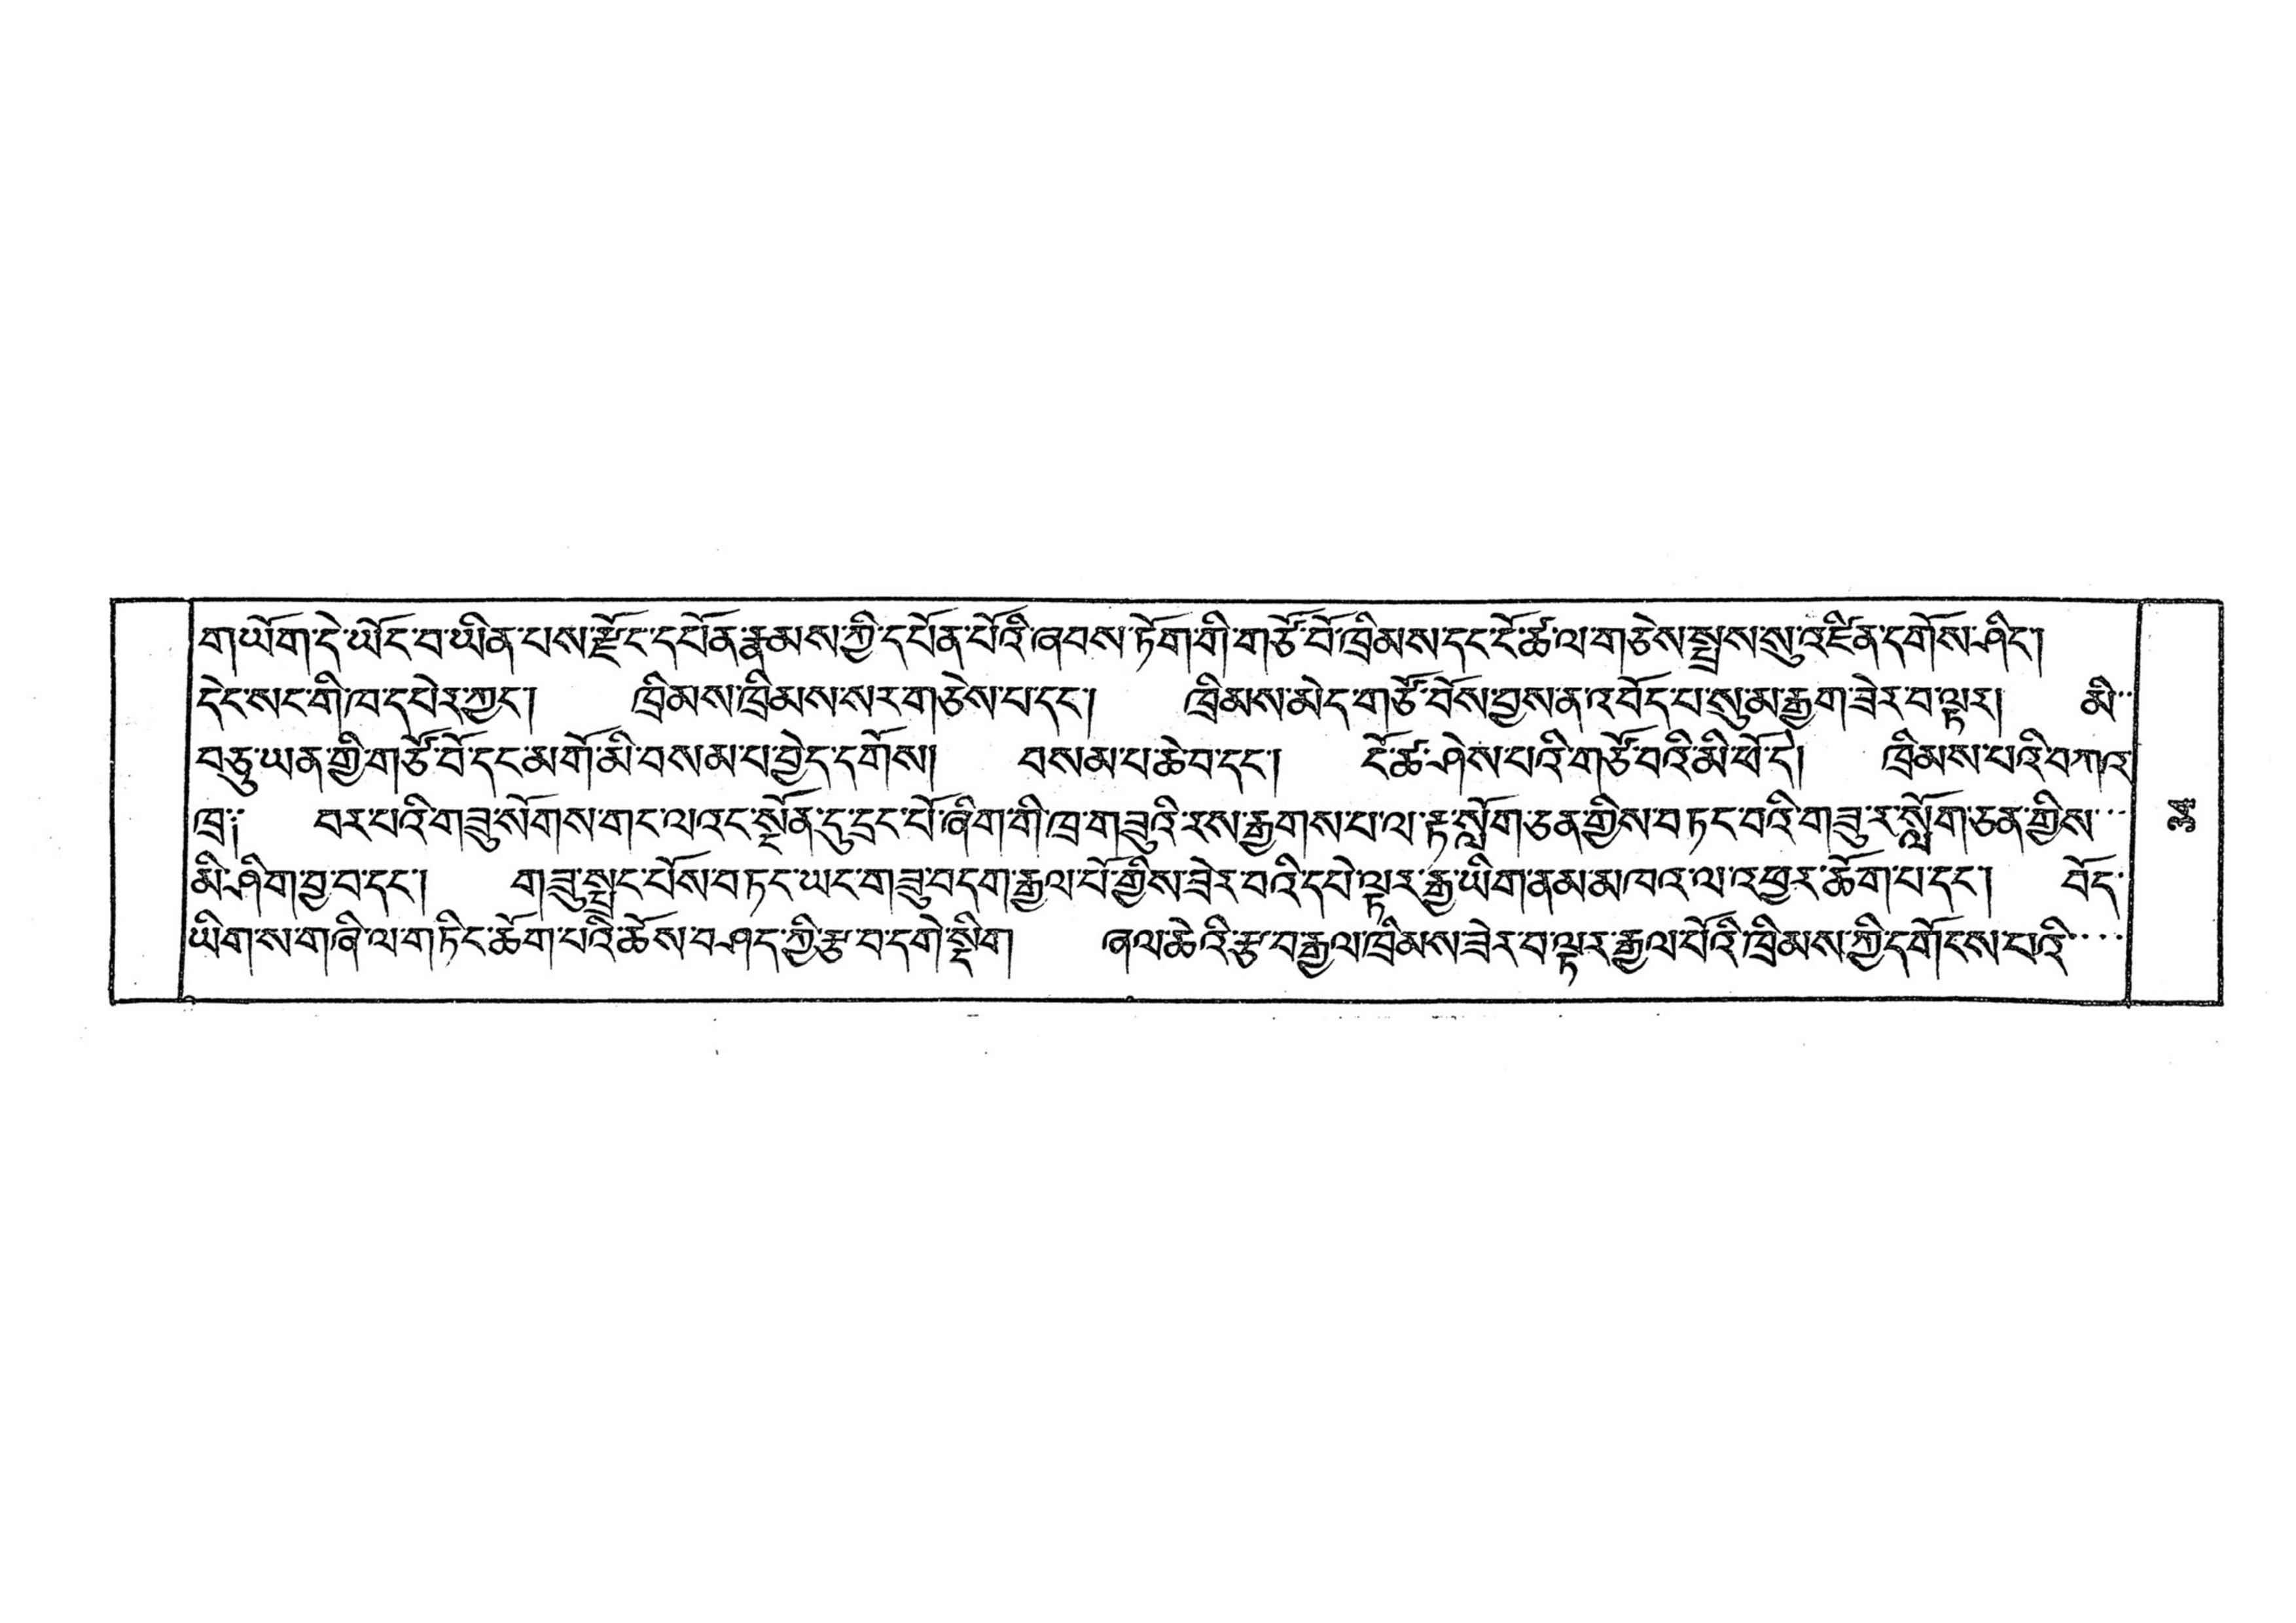གཡོག་དེ་ཡོད་པ་ཡིན་པས་རྫོང་དཔོན་རྣམས་ཀྱི་དཔོན་པོའི་ཞབས་ཏོག་གི་གཙོ་བོ་ཁྲིམས་དང་ངོ་ཚ་ལ་གཅེས་སྤྲས་སུ་འཛིན་དགོས་ཤིང་།
དེང་སང་གི་ཁ་དཔེར་ཀྱང་། ཁྲིམས་ཁྲིམས་སར་གཅེས་པ་དང་། ཁྲིམས་མེད་གཙོ་བོས་བྱས་ན་འབོད་པ་སུ་མ་རྒྱག་ཟེར་བ་ལྟར། མི་་
བཅུ་ཡན་གྱི་གཙོ་བོ་དང་མགོ་མི་བསམ་པ་བྱེད་དགོས། བསམ་པ་ཆེ་བ་དང་། ངོ་ཚ་ཤེས་པའི་གཙོ་བའི་མི་ཕོ་དེ། ཁྲིམས་པའི་བཀའ་
ཁྲ༑ བར་པའི་གཟུ་སོགས་གང་ལའང་སྔོན་དུ་དྲང་པོ་ཞིག་གི་ཁྲི་གཟུའི་རས་རྒྱགས་པ་ལ་རྟ་སློག་ཅན་གྱིས་བཏང་བའི་གཟུ་ར་སློག་ཅན་གྱིས་་་
མི་ཤིག་བྱ་བ་དང་། གཟུ་སྤྲང་པོས་བཏང་ཡང་གཟུ་བདག་རྒྱལ་པོ་གྱིས་ཟེར་བའི་དཔེ་ལྟར་རྒྱ་ཡིག་ནམ་མཁའ་ལ་འཕྱར་ཆོག་པ་དང་། བོད་
ཡིག་ས་གཞི་ལ་གཏིང་ཆོག་པའི་ཆོས་བཤད་ཀྱི་རྩ་བ་དགེ་སྡིག ཞལ་ཆེའི་རྩ་བ་རྒྱལ་ཁྲིམས་ཟེར་བ་ལྟར་རྒྱལ་པོའི་ཁྲིམས་ཀྱི་དགོངས་པའི་་་་
